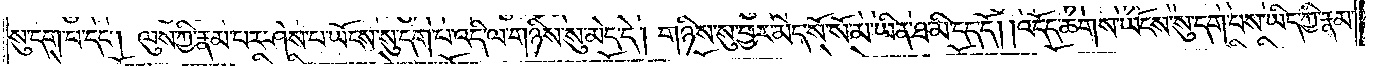སུ་དག་པ་དང༌། ལུས་ཀྱི་རྣམ་པར་ཤེས་པ་ཡོངས་སུ་དག་པ་འདི་ལ་གཉིས་སུ་མེད་དེ། གཉིས་སུ་བྱར་མེད་སོ་སོ་མ་ཡིན་ཐ་མི་དད་དོ། །འདོད་ཆགས་ཡོངས་སུ་དག་པས་ཡིད་ཀྱི་རྣམ་
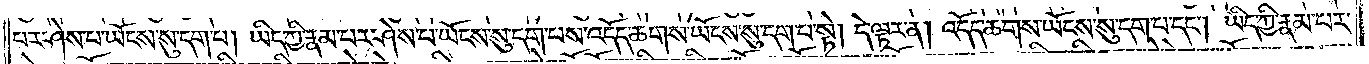པར་ཤེས་པ་ཡོངས་སུ་དག་པ། ཡིད་ཀྱི་རྣམ་པར་ཤེས་པ་ཡོངས་སུ་དག་པས་འདོད་ཆགས་ཡོངས་སུ་དག་པ་སྟེ། དེ་ལྟར་ན། འདོད་ཆགས་ཡོངས་སུ་དག་པ་དང༌། ཡིད་ཀྱི་རྣམ་པར་
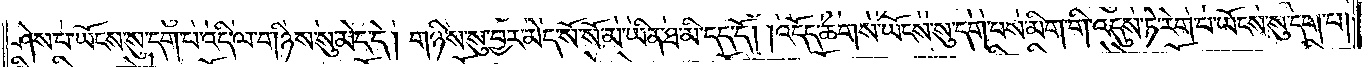ཤེས་པ་ཡོངས་སུ་དག་པ་འདི་ལ་གཉིས་སུ་མེད་དེ། གཉིས་སུ་བྱར་མེད་སོ་སོ་མ་ཡིན་ཐ་མི་དད་དོ། །འདོད་ཆགས་ཡོངས་སུ་དག་པས་མིག་གི་འདུས་ཏེ་རེག་པ་ཡོངས་སུ་དག་པ།
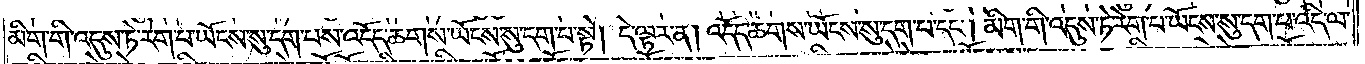མིག་གི་འདུས་ཏེ་རེག་པ་ཡོངས་སུ་དག་པས་འདོད་ཆགས་ཡོངས་སུ་དག་པ་སྟེ། དེ་ལྟར་ན། འདོད་ཆགས་ཡོངས་སུ་དག་པ་དང༌། མིག་གི་འདུས་ཏེ་རེག་པ་ཡོངས་སུ་དག་པ་འདི་ལ་
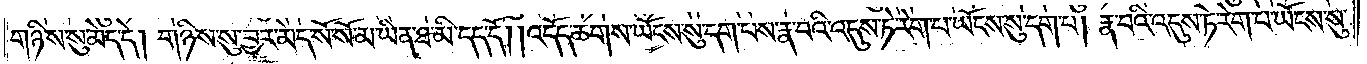གཉིས་སུ་མེད་དེ། གཉིས་སུ་བྱར་མེད་སོ་སོ་མ་ཡིན་ཐ་མི་དད་དོ། །འདོད་ཆགས་ཡོངས་སུ་དག་པས་རྣ་བའི་འདུས་ཏེ་རེག་པ་ཡོངས་སུ་དག་པ། རྣ་བའི་འདུས་ཏེ་རེག་པ་ཡོངས་སུ་
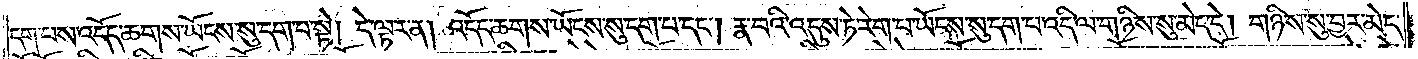དག་པས་འདོད་ཆགས་ཡོངས་སུ་དག་པ་སྟེ། དེ་ལྟར་ན། འདོད་ཆགས་ཡོངས་སུ་དག་པ་དང༌། རྣ་བའི་འདུས་ཏེ་རེག་པ་ཡོངས་སུ་དག་པ་འདི་ལ་གཉིས་སུ་མེད་དེ། གཉིས་སུ་བྱར་མེད་
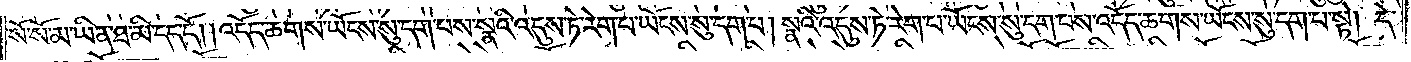སོ་སོ་མ་ཡིན་ཐ་མི་དད་དོ། །འདོད་ཆགས་ཡོངས་སུ་དག་པས་སྣའི་འདུས་ཏེ་རེག་པ་ཡོངས་སུ་དག་པ། སྣའི་འདུས་ཏེ་རེག་པ་ཡོངས་སུ་དག་པས་འདོད་ཆགས་ཡོངས་སུ་དག་པ་སྟེ། དེ་
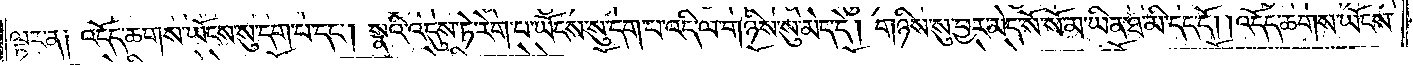ལྟར་ན། འདོད་ཆགས་ཡོངས་སུ་དག་པ་དང༌། སྣའི་འདུས་ཏེ་རེག་པ་ཡོངས་སུ་དག་པ་འདི་ལ་གཉིས་སུ་མེད་དེ། གཉིས་སུ་བྱར་མེད་སོ་སོ་མ་ཡིན་ཐ་མི་དད་དོ། །འདོད་ཆགས་ཡོངས་
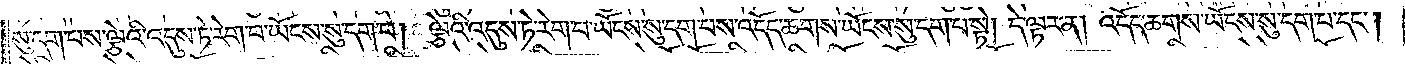སུ་དག་པས་ལྕེའི་འདུས་ཏེ་རེག་པ་ཡོངས་སུ་དག་པ། ལྕེའི་འདུས་ཏེ་རེག་པ་ཡོངས་སུ་དག་པས་འདོད་ཆགས་ཡོངས་སུ་དག་པ་སྟེ། དེ་ལྟར་ན། འདོད་ཆགས་ཡོངས་སུ་དག་པ་དང༌།
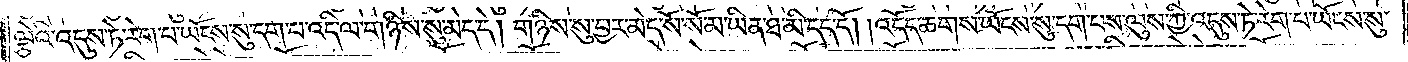ལྕེའི་འདུས་ཏེ་རེག་པ་ཡོངས་སུ་དག་པ་འདི་ལ་གཉིས་སུ་མེད་དེ། གཉིས་སུ་བྱར་མེད་སོ་སོ་མ་ཡིན་ཐ་མི་དད་དོ། །འདོད་ཆགས་ཡོངས་སུ་དག་པས་ལུས་ཀྱི་འདུས་ཏེ་རེག་པ་ཡོངས་སུ་
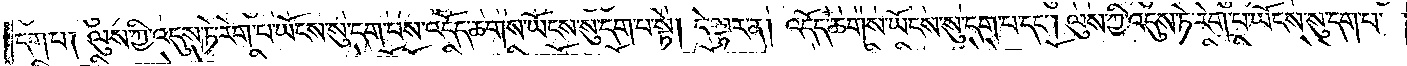དག་པ། ལུས་ཀྱི་འདུས་ཏེ་རེག་པ་ཡོངས་སུ་དག་པས་འདོད་ཆགས་ཡོངས་སུ་དག་པ་སྟེ། དེ་ལྟར་ན། འདོད་ཆགས་ཡོངས་སུ་དག་པ་དང༌། ལུས་ཀྱི་འདུས་ཏེ་རེག་པ་ཡོངས་སུ་དག་པ་
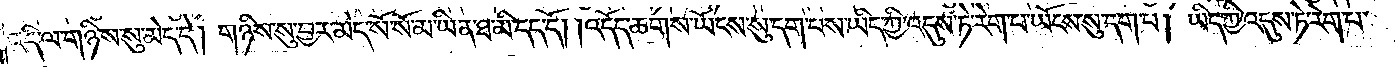འདི་ལ་གཉིས་སུ་མེད་དེ། གཉིས་སུ་བྱར་མེད་སོ་སོ་མ་ཡིན་ཐ་མི་དད་དོ། །འདོད་ཆགས་ཡོངས་སུ་དག་པས་ཡིད་ཀྱི་འདུས་ཏེ་རེག་པ་ཡོངས་སུ་དག་པ། ཡིད་ཀྱི་འདུས་ཏེ་རེག་པ་
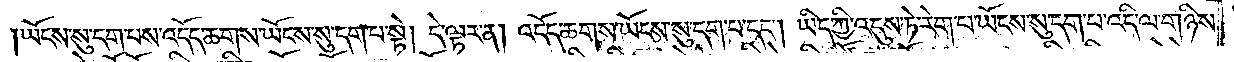ཡོངས་སུ་དག་པས་འདོད་ཆགས་ཡོངས་སུ་དག་པ་སྟེ། དེ་ལྟར་ན། འདོད་ཆགས་ཡོངས་སུ་དག་པ་དང༌། ཡིད་ཀྱི་འདུས་ཏེ་རེག་པ་ཡོངས་སུ་དག་པ་འདི་ལ་གཉིས་
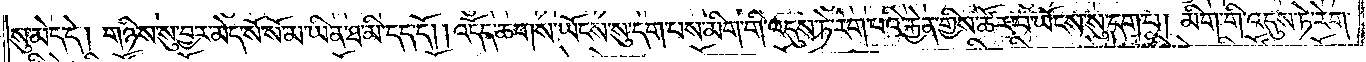སུ་མེད་དེ། གཉིས་སུ་བྱར་མེད་སོ་སོ་མ་ཡིན་ཐ་མི་དད་དོ། །འདོད་ཆགས་ཡོངས་སུ་དག་པས་མིག་གི་འདུས་ཏེ་རེག་པའི་རྐྱེན་གྱིས་ཚོར་བ་ཡོངས་སུ་དག་པ། མིག་གི་འདུས་ཏེ་རེག་
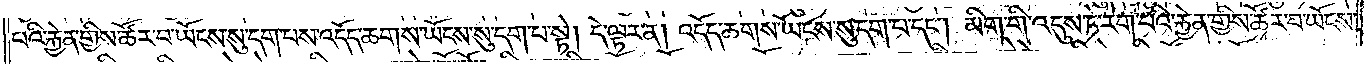པའི་རྐྱེན་གྱིས་ཚོར་བ་ཡོངས་སུ་དག་པས་འདོད་ཆགས་ཡོངས་སུ་དག་པ་སྟེ། དེ་ལྟར་ན། འདོད་ཆགས་ཡོངས་སུ་དག་པ་དང༌། མིག་གི་འདུས་ཏེ་རེག་པའི་རྐྱེན་གྱིས་ཚོར་བ་ཡོངས་
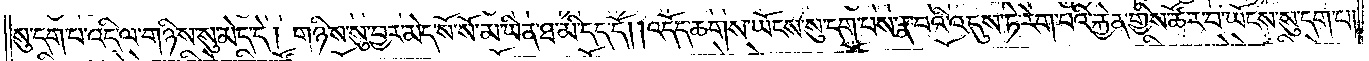སུ་དག་པ་འདི་ལ་གཉིས་སུ་མེད་དེ། གཉིས་སུ་བྱར་མེད་སོ་སོ་མ་ཡིན་ཐ་མི་དད་དོ། །འདོད་ཆགས་ཡོངས་སུ་དག་པས་རྣ་བའི་འདུས་ཏེ་རེག་པའི་རྐྱེན་གྱིས་ཚོར་བ་ཡོངས་སུ་དག་པ།
